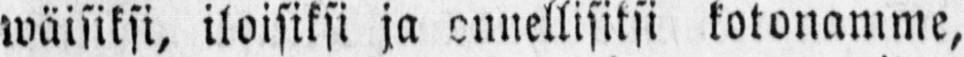wäisiksi, iloisiksi ja onnellisiksi kotonamme,
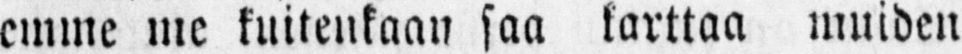emme me kuitenkaan saa karttaa muiden
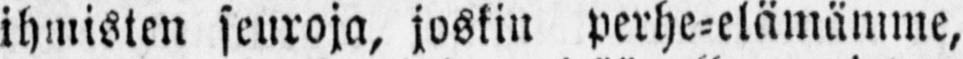ihmisten seuroja, joskin perhe-elämämme,
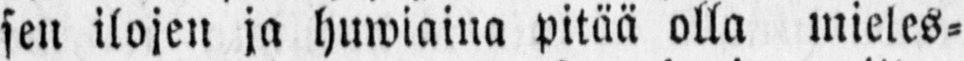sen ilojen ja huwiaina pitää olla mieles-
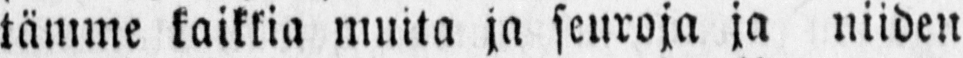tämme kaikkia muita ja seuroja ja niiden
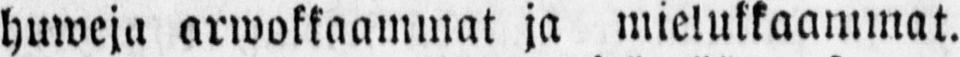huweja arwokkaammat ja mielukkaammat.
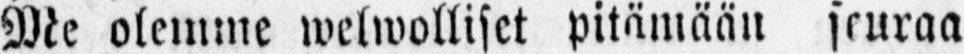Me olemme welwolliset pitämään seuraa
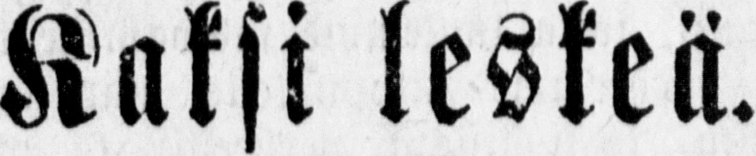Kaksi leskeä.
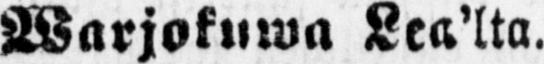Warjokuwa Lea'lta.
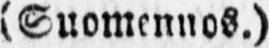(Suomennos.)
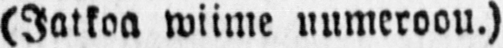(Jatkoa Wiime numeroou.)
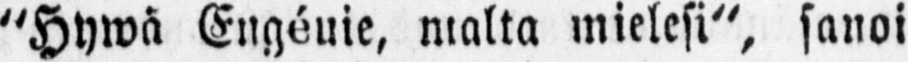"Hywä Engéuie, malta mielesi", sanoi
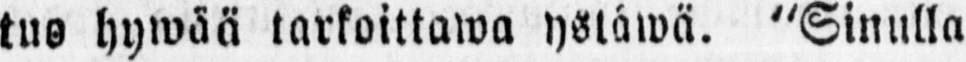tuo hywää tarkoittawa ystäwä. "Sinulla
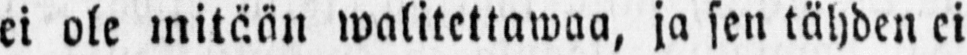ei ole mitään walitettawaa, ja sen tähden ei
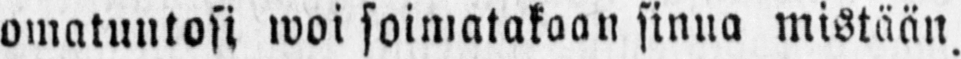omatuntosi woi soimatakaan sinua mistään.
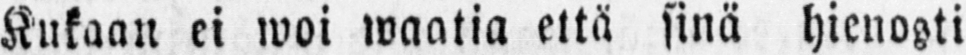Kukaan ei woi waatia että sinä hienosti
